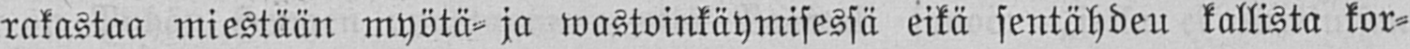rakastaa miestään myötä- ja wastoinkäymisessä eikä sentähdeu kallista kor-
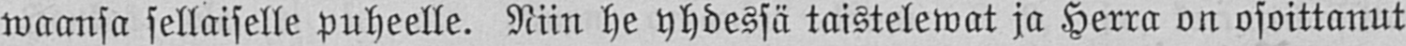waansa sellaiselle puheelle. Niin he yhdessä taistelewat ja Herra on osoittanut
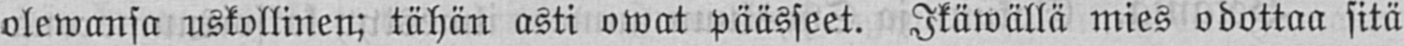olewansa uskollinen; tähän asti owat päässeet. Ikäwällä mies odottaa sitä
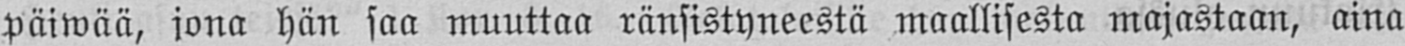päiwää, jona hän saa muuttaa ränsistyneestä maallisesta majastaan, aina
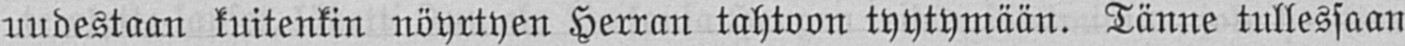uudestaan kuitenkin nöyrtyen Herran tahtoon tyytymään. Tänne tullessaan
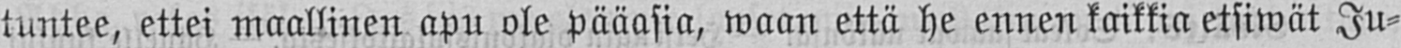tuntee, ettei maallinen apu ole pääasia, waan että he ennen kaikkia etsiwät Ju-
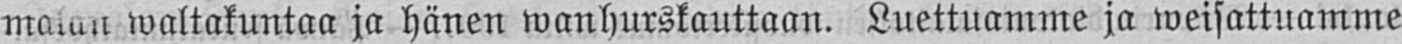malan waltakuntaa ja hänen wanhurskauttaan. Luettuamme ja weisattuamme
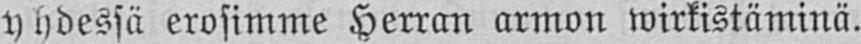yhdessä erosimme Herran armon wirkistäminä.
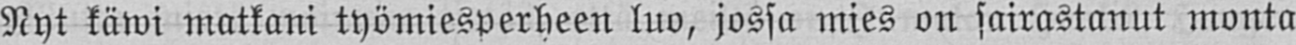Nyt käwi matkani työmiesperheen luo, jossa mies on sairastanut monta
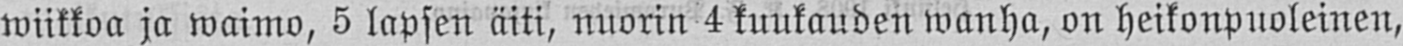wiikkoa ja waimo, 5 lapsen äiti, nuorin 4 kuukauden wanha, on heikonpuoleinen,
